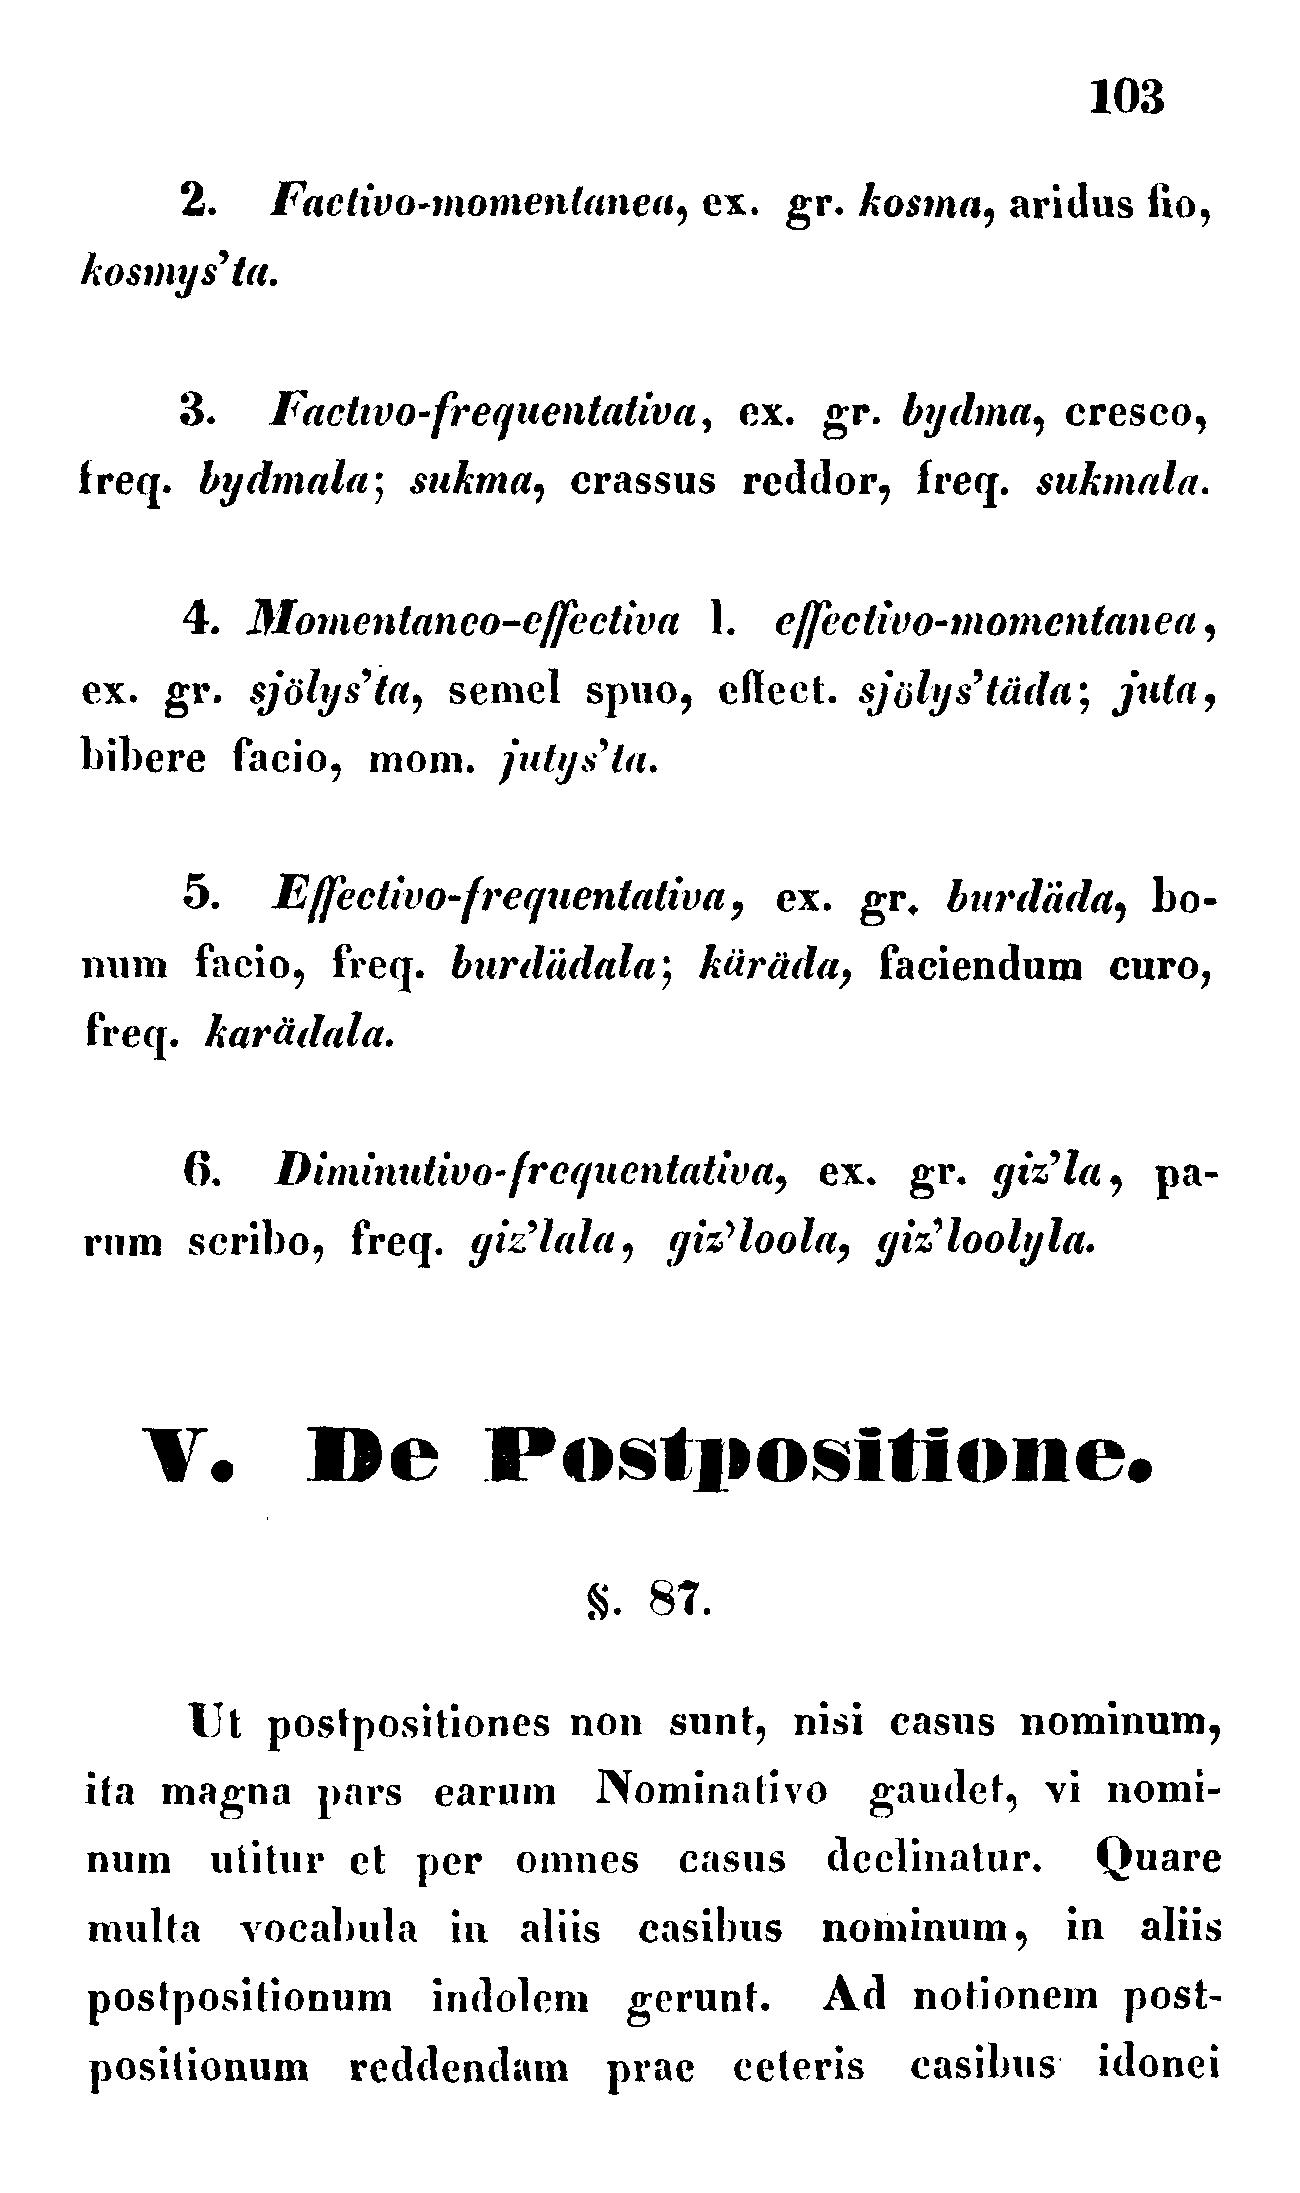103
2. Factivo-momentanea, ex. gr. kosma, aridus fio,
kosmys'ta.
3. Factivo-frequentativa, ex. gr. bydma, cresco,
freq. bydmala; sukma, crassus reddor, freq. sukmala.
4. Momentanco-effectiva 1. essectivo-momentanea,
ex. gr. sjölys'ta, semel spuo, effect. sjölys'täda; juta,
bibere facio, mom. jutys'ta.
5. Essectivo-frequentativa, ex. gr. burdäda, bo-
num facio, freq. burdädala; käräda, faciendum curo,
freq. karädala.
6. Diminutivo-frequentativa, ex. gr. giz'la, pa-
rum scribo, freq. giz'lala, giz'loola, giz'loolyla.
V. De Postpositione.
§. 87.
Ut postpositiones non sunt, nisi casus nominum,
ita magna pars earum Nominativo gaudet, vi nomi-
num ulitur et per omnes casus declinatur. Quare
multa vocabula in aliis casibus nominum, in aliis
postpositionum indolem gerunt. Ad notionem post-
positionum reddendam prae ceteris casibus idonei
